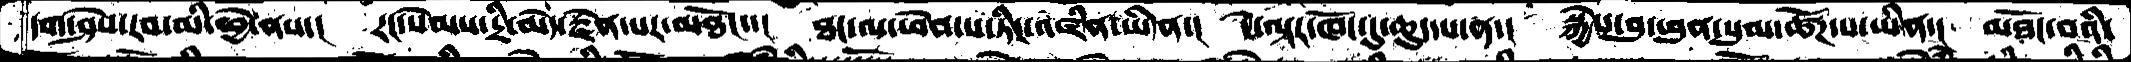དག་ཤེས་རབ་མི་ཕྱེ་ནས་།  རང་སེམས་དྲི་མེད་རྗེན་པར་མཐོང་་།  ཐང་ལ་ཕེབ་པ་ཏིང་འཛིན་ཡིན་།  དེ་ལྟར་ཁོང་དུ་ཆུད་པ་ན་།  སྐྱེས་བུ་ཕུན་སུམ་ཚོཌ་པ་ཡིན་།  མཐོང་བའི་
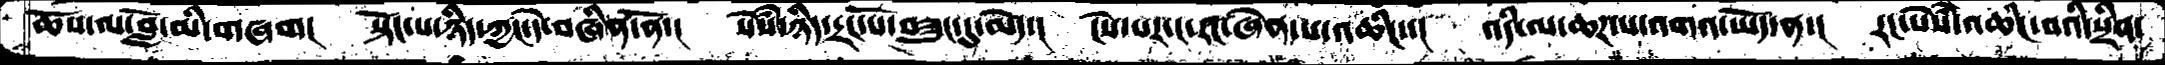ཆོས་ལ་བློ་མི་གཞག།  སྟོང་པ་ཉིད་ཀྱང་དེ་བཞིན་ནོ་།  སེཾས་ཉིད་དྲང་པོ་བཟུང་དུ་མེད་།  ངེས་པར་ང་རང་ཞེན་པ་འཆིང་་།  འདི་ལ་ཆཌ་པ་འགའ་་ཡོད་ན་།  རང་སེཾས་འཆིང་བའི་སྲིན་
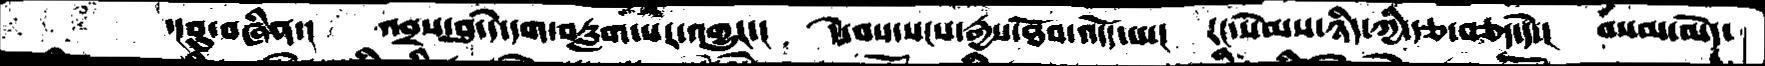་།བུ་བཞིན་།  འབྲས་བུ་དེ་དག་བརླག་པར་འགྱུར་།  དེ་བས་སངས་རྒྱས་ཐོབ་འདོད་པ་།  རང་སེམས་ཉིད་ཀྱི་རྩ་བཅད་དེ་།  བསམ་མེད་
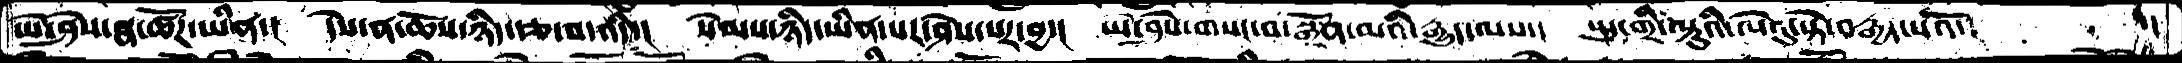ཡེ་ཤེས་སྣ་ཚོཌ་ཡིན་།  དེས་ན་ཆོས་ཉིད་རྩ་བ་འདི་། སེམས་ཉིད་ཡིན་པར་ཤེས་པར་བྱ་།  ཡེ་ཤེས་གསང་བ་སྒྲོན་མའི་རྒྱུད་ལས་།  སྤུ་གྲི་ལྟུའི་ལེའུ་སྟེ་བརྒྱད་པའོ་།    ་།
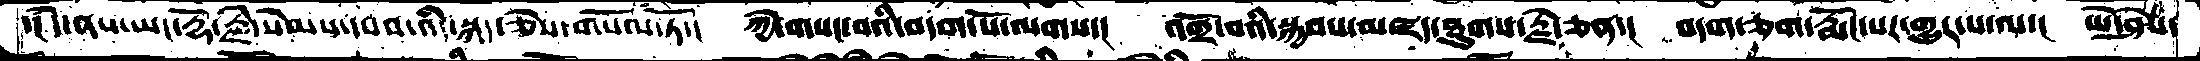་།དེ་ནས་ཡང་རྡོ་རྗེ་སེམས་དཔས་འདི་སྐད་ཅེ་གསོལ་ཏོ་།   ཀྱེ་གསང་བའི་བདག་པོ་ལགས་།  འགྲོ་བའི་སྐྱབས་མཛད་ཐུགས་རྗེ་ཅན་།  བདག་ཅག་རྨོངས་པར་གྱུར་པ་ལ་།  ཡེ་ཤེས་
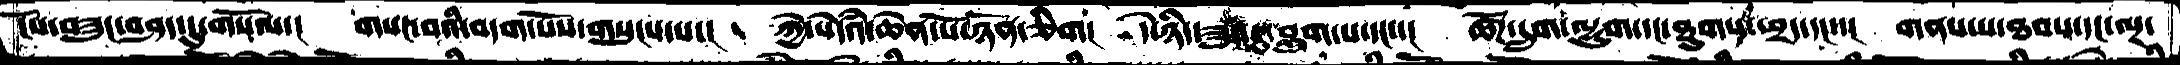ངོས་བཟུང་བཤད་དུ་གསོལ་།  གསང་བའི་བདག་པོས་གསུངས་པ་།  ཀྱེ་སེཾདའ་ཆེན་པོ་ཉོན་ཅིག།  དེ་ཉིད་ཟུང་དུ་བླུག་པ་དང་་།  ཚོཌ་དྲུག་ལྷུག་དང་ཐུཌ་ཕྲད་དང་་།  གནས་པ་ཐབས་དང་ལྔ་
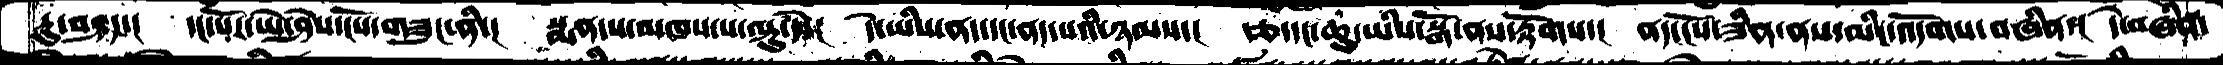རུ་བཤད་།  དང་པོར་ཡེ་ཤེས་ངོས་གཟུང་ནི་།  སྨན་པ་མཁས་པ་ལྟུ་ཏེ་།  དེ་ཡིས་ནད་དང་ནད་པའི་ཉམས་།  རྩ་དང་ཆུ་ཡིས་སྒོ་ནས་རྟོགས་།  ནད་ངོས་ཟིན་ནས་མིང་འདོགས་བཞིན་།  དེ་བཞིན་
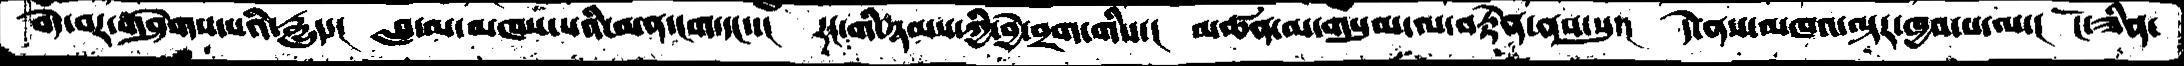བདེ་བར་གཤེགས་པའི་རྒྱུད་།  བླ་མ་མཁས་པའི་མན་ངག་དང་་།  རང་གི་ཉམས་ཀྱི་བྱེ་བྲག་གིས་།  མཚན་མ་གསུམ་ལ་བརྟེན་ནས་སུ་།  དེ་ནས་མཁའ་ལྟར་ཁྱབ་པ་ལ་།  ངོ་ཟིན་
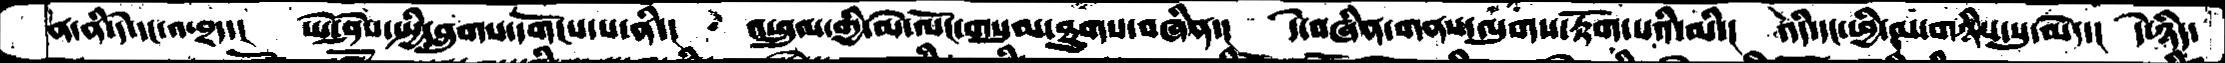ན་ནི་དེ་དང་འཕྲད་།  ཡེ་ཤེས་སྤྱི་བླུགས་དགོངས་པ་ནི་།  འཕྲུལ་གྱི་མེ་ལོང་གསུམ་ཐུགས་བཞིན་།  དེ་བཞིན་གནས་ལུགས་རྟོག་པའི་མི་།  འདི་དང་ཕྱི་མ་གཉིས་སུ་མེད་།  དེ་ཉིད་
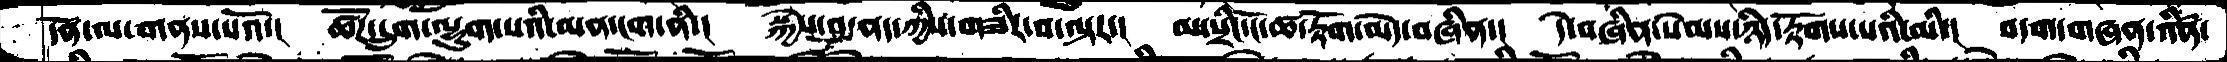དོན་ལ་གནས་པའོ་།   ཚོཌ་དྲུག་ལྷུག་པའི་མན་ངག་ནི་།  སྐྱེས་བུ་ནད་ཀྱིས་གཟིར་བ་ལྟར་།  མ་སྲིང་ངོ་ཚ་རྟོག་མེད་བཞིན་།  དེ་བཞིན་སེམས་ཉིད་རྟོགས་པའི་མི་།  བདག་གཞན་འཛིན་
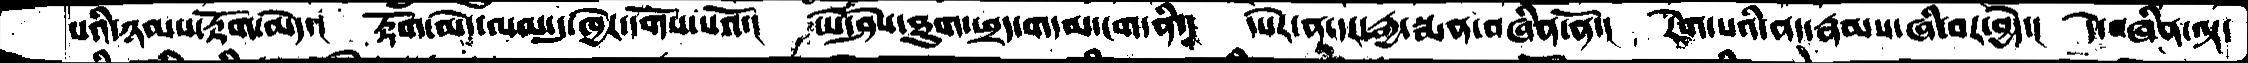པའི་ཉམས་རྟོག་མེད་།  རྟོག་མེད་ལམ་དུ་ཁྱེར་དགོས་པའོ་།  ཡེ་ཤེས་ཐུག་ཕྲད་གདམ་ངག་ནི་།  དཔེར་ན་དར་རྒྱ་སྨན་བཞིན་ནོ་།  རེག་པའི་ནད་རྣམས་ཞི་བར་བྱེད་།  དེ་བཞིན་ལྟ་
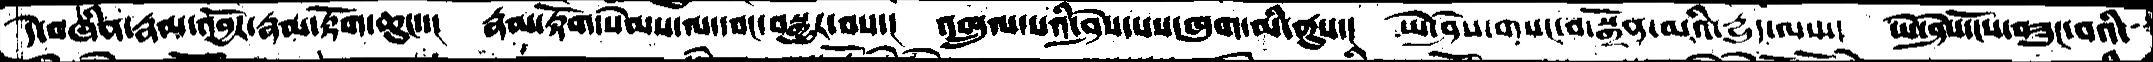དེ་བཞིན་རྣལ་འབྱོར་རྣམ་རྟོག་ཆུང་་།  རྣམ་རྟོག་སེམས་ལ་དབང་བསྒྱུར་བས་།  འཁྲུལ་པའི་ཤེས་པས་ཁུག་མི་ནུས་།  ཡེ་ཤེས་གསང་བ་སྒྲོན་མའི་དྱུད་ལས་།   ཡེ་ཤེས་ངོས་བཟུང་བའི་
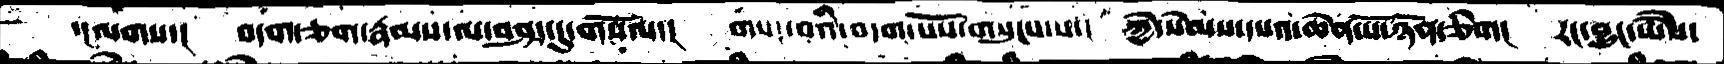་།ལགས་།  བདག་ཅན་རྣམས་ལ་བཤད་དུ་གསོལ་།  གསང་བའི་བདག་པོས་གསུངས་པ་།  ཀྱེ་སེམས་དཔའ་ཆེན་པོ་ཉོན་ཅིག།   རང་བྱུང་ཡཻས་
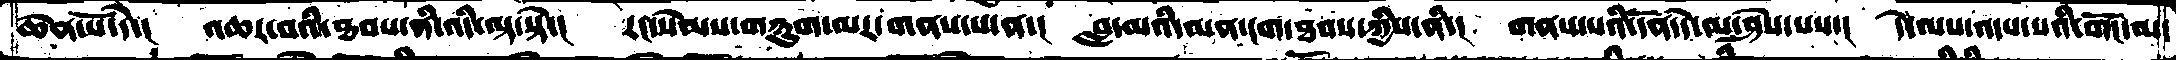ཆེན་པོ་དེ་།  འཆར་བའི་ཐབས་ནི་འདི་ལྟ་སྟེ་།   རང་སེམས་གཉུག་མར་གནས་པ་ན་།  བླ་མའི་མན་ངག་ཐབས་ཀྱིས་ནི་།  གནས་པའི་དོན་དེ་མ་ཤེས་པས་།  དེ་ལས་འདས་པའི་གོང་མ་
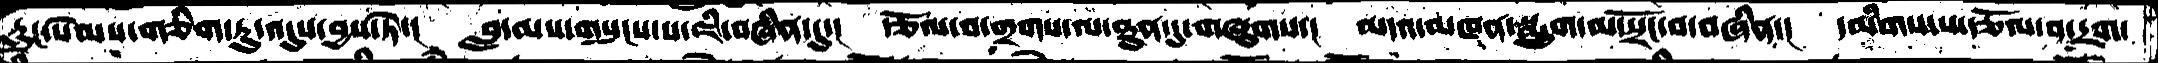རླུང་སེམས་གཅིག་ཏུ་འདུས་བྱས་ཏེ་།   བླ་མས་གསུངས་པ་ཇི་བཞིན་དུ་།  རྩོལ་བ་གྲགས་ལ་ཐུན་དུ་གཞུགས་།  མདའ་མཁན་སྨྱུག་མ་སྲོང་བ་བཞིན་།  དམིགས་པ་རྩོལ་བ་དྲག་
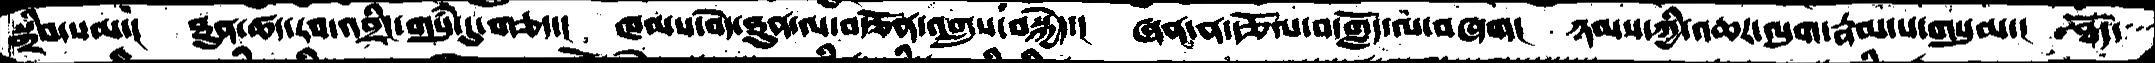སྒྲིབ་སམ་།   ཐུན་ཚད་རབ་འབྲིང་གསུཾ་དུ་གཅད་།  ཁམས་བདེ་ཐུན་ལ་བརྩོན་འགྲུས་བསྐྱེད་།  ཞན་ན་རྩོལ་བ་གློད་ལ་བཞག།  ཉམས་ཀྱི་འཆར་ལུག་རྣམ་པ་གསུམ་།  ཐོད་
